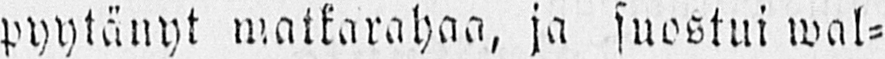pyytänyt matkarahaa, ja suostui wal-
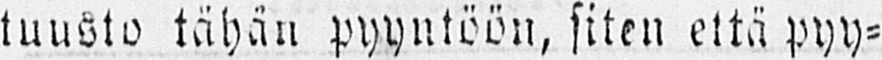tuusto tähän pyyntöön, siten että pyy-
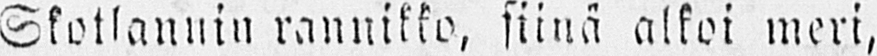Skotlannin rannikko, siinä alkoi meri,
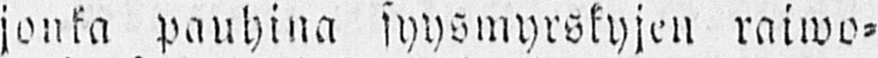jonka pauhina syysmyrskyjen raiwo-
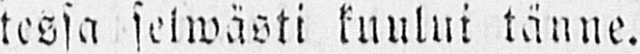tessa selwästi kuului tänne.
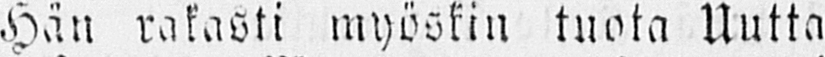Hän rakasti myöskin tuota Uutta
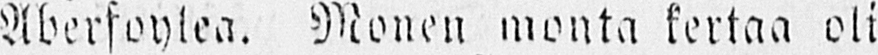Aberfoylea. Monen monta kertaa oli
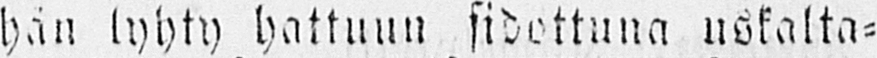hän lyhty hattuun sidottuna uskalta-
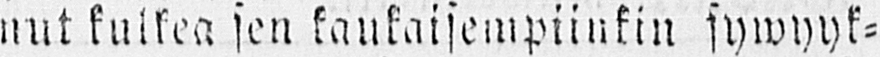nut kulkea sen kaukaisempiinkin sywyyk-
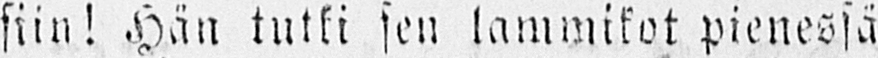siin! Hän tutki sen lammikot pienessä
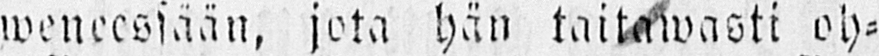weneessään, jota hän taitawasti oh-
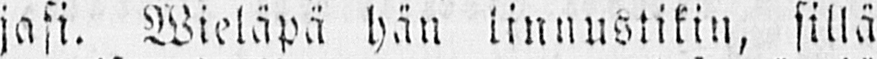jasi. Wieläpä hän linnustikin, sillä
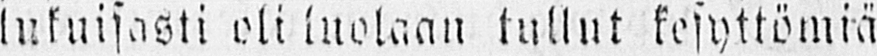lukuisasti oli luolaan tullut kesyttömiä
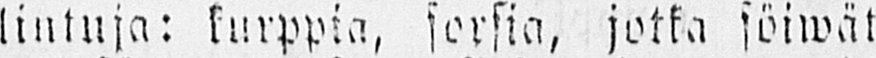lintuja: kurppia, sorsia, jotka söiwät
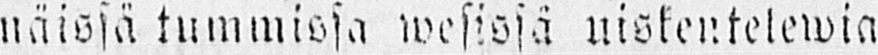näissä tummissa wesissä uiskentelewia
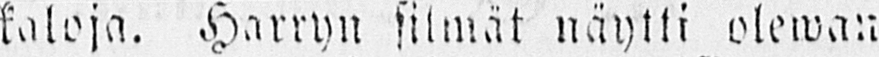kaloja. Harryn silmät näytti olewan
